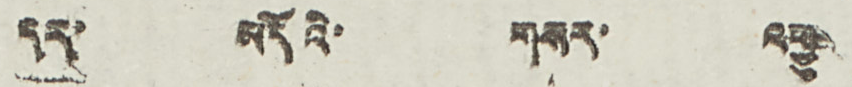དར་ མདོའི་ གསར་ འགྱུར།
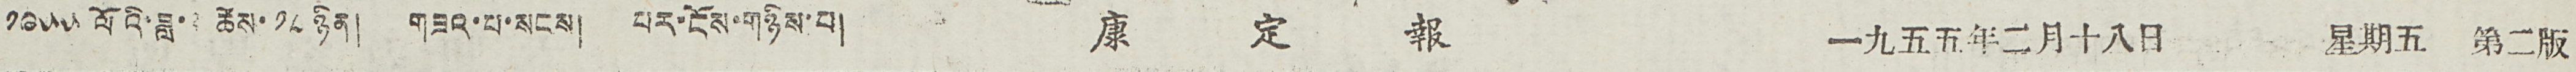༡༩༥༥ ལོའི་ཟླ་ ༢ ཚེས་ ༡༨ ཉིན། གཟའ་པ་སངས། པར་ངོས་གཉིས་པ། 康 定 報 一九五五年二月十八日 星期五 第二版
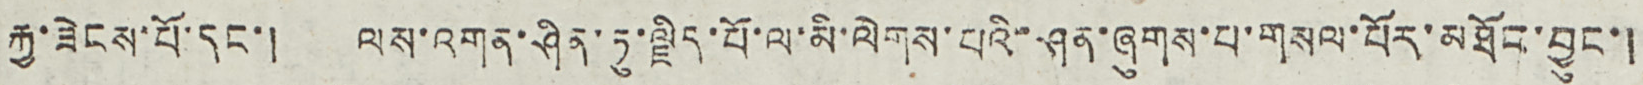རྐྱ་ཟེངས་པོ་དང་། ལས་འགན་ཤིན་ཏུ་ལྗིད་པོ་ལ་མི་ལེགས་པའི་ཤན་ཞུགས་པ་གསལ་པོར་མཐོང་བྱུང་།
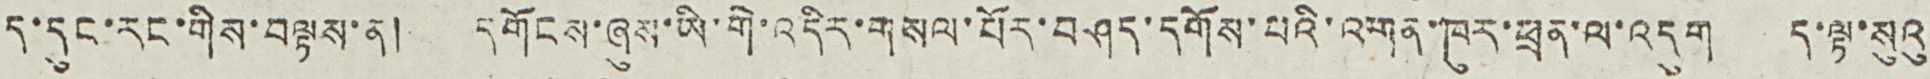ད་དུང་རང་གིས་བལྟས་ན། དགོངས་ཞུས་ཡི་གེ་འདིར་གསལ་པོར་བཤད་དགོས་པའི་འགན་ཁུར་ཕྲན་ལ་འདུག ད་ལྟ་སུའུ
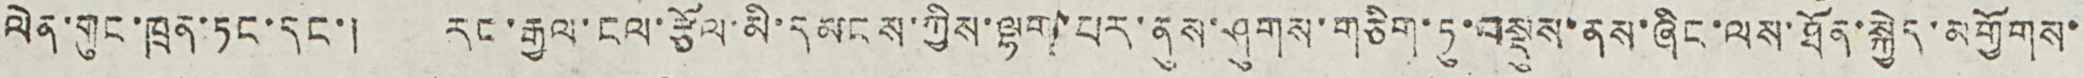ལེན་གུང་ཁྲན་ཏང་དང་། རང་རྒྱལ་ངལ་རྩོལ་མི་དམངས་ཀྱིས་ལྷག་པར་ནུས་ཤུགས་གཅིག་ཏུ་བསྡུས་ནས་ཞིང་ལས་ཐོན་སྐྱེད་མགྱོགས་
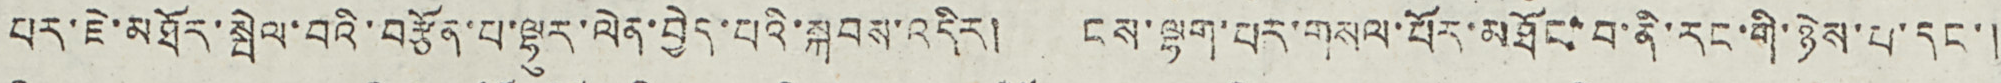པར་ཇེ་མཐོར་སྤེལ་བའི་བརྩོན་པ་ལྷུར་ལེན་བྱེད་པའི་སྐབས་འདིར། ངས་ལྷག་པར་གསལ་པོར་མཐོང་བ་ནི་རང་གི་ཉེས་པ་དང་།
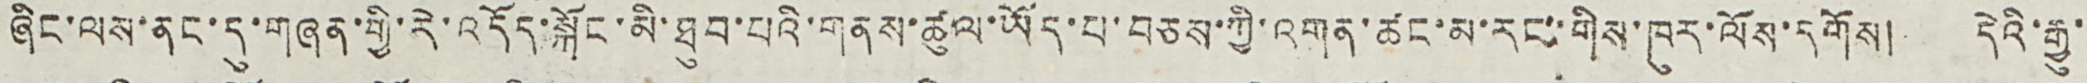ཞིང་ལས་ནང་དུ་གཞན་གྱི་རེ་འདོད་སྐོང་མི་ཐུབ་པའི་གནས་ཚུལ་ཡོད་པ་བཅས་ཀྱི་འགན་ཚང་མ་རང་གིས་ཁུར་ལོས་དགོས། དེའི་རྒྱུ་
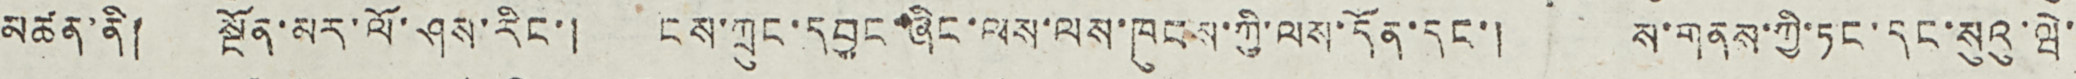མཚན་ནི། སྔོན་མར་ལོ་ཤས་རིང་། ངས་ཀྲུང་དབྱང་ཞེང་ལས་ལས་ཁུབས་ཀྱི་ལས་དོན་དང་། ས་གནས་ཀྱི་ཏང་དང་སུའུ་ཝེ་
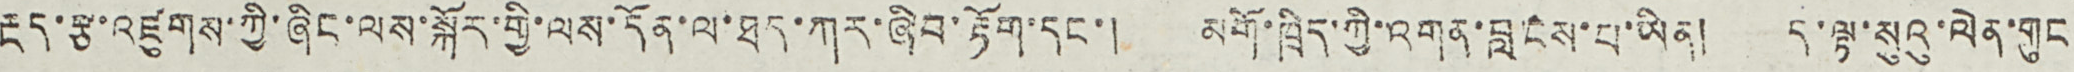རྔད་རྩ་འཛུགས་ཀྱི་ཞིང་ལས་སྐོར་གྱི་ལས་དོན་ལ་ཐད་ཀར་ཞིབ་རྟོག་དང་། མགོ་ཁྲིད་ཀྱི་འགན་བླངས་པ་ཡིན། ད་ལྟ་སུའུ་ལེན་གུང
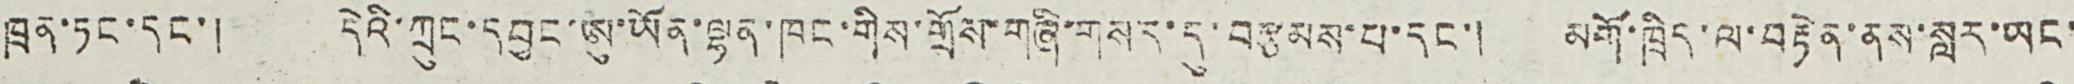ཁྲན་ཏང་དང་། དེའི་ཀྲུང་དབྱང་ཨུ་ཡོན་ལྷན་ཁང་གིས་གྲོས་གཞི་གསར་དུ་བརྩམས་པ་དང་། མགོ་ཁྲིད་ལ་བརྟེན་ནས་སླར་ཡང་
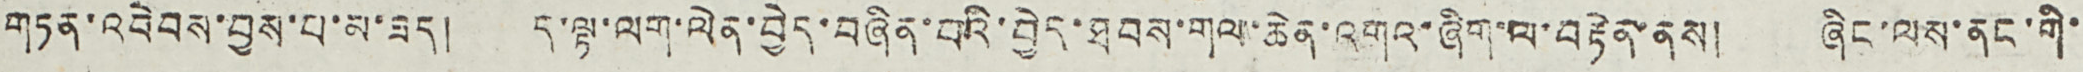གཏན་འབེབས་བྱས་པ་མ་ཟད། ད་ལྟ་ལག་ལེན་བྱེད་བཞིན་པའི་བྱེད་ཐབས་གལ་ཆེན་འགའ་ཞིག་ལ་བརྟེན་ནས། ཞིང་ལས་ནང་གི་
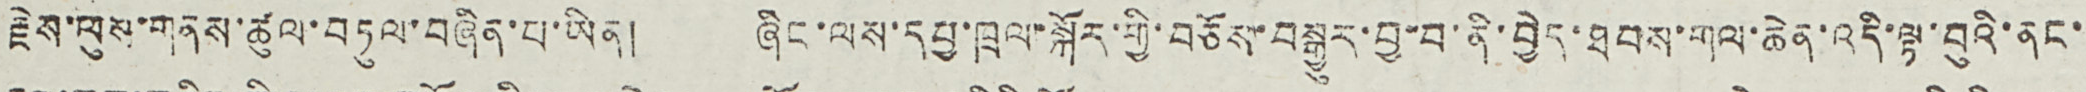རྗེས་ལུས་གནས་ཚུལ་བཏུལ་བཞིན་པ་ཡིན། ཞིང་ལས་དཔྱ་ཁྲལ་སྐོར་གྱི་བཅོས་བསྒྱུར་བྱ་བ་ནི་བྱེད་ཐབས་གལ་ཆེན་འདི་ལྟ་བུའི་ནང་
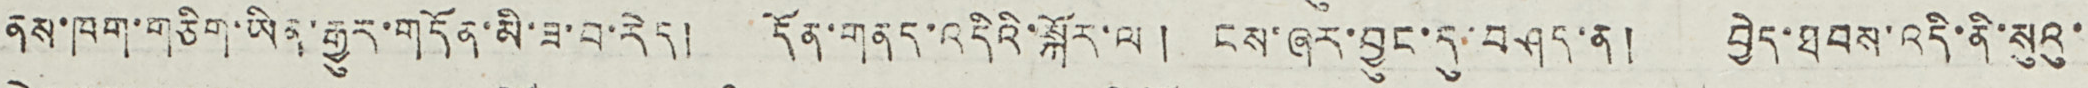ནས་ཁག་གཅིག་ཡིན་རྒྱུར་གདོན་མི་ཟ་བ་རེད། དོན་གནད་འདིའི་སྐོར་ལ ། ངས་ཞར་བྱུང་དུ་བཤད་ན། བྱེད་ཐབས་འདི་ནི་སུའུ་
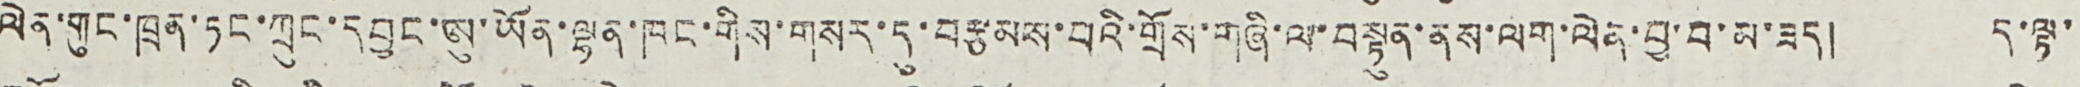ལེན་གུང་ཁྲན་ཏང་ཀྲུང་དབྱང་ཨུ་ཡོན་ལྷན་ཁང་གིས་གསར་དུ་བརྩམས་པའི་གྲོས་གཞི་ལ་བསྟུན་ནས་ལག་ལེན་བྱ་བ་མ་ཟད། ད་ལྟ་
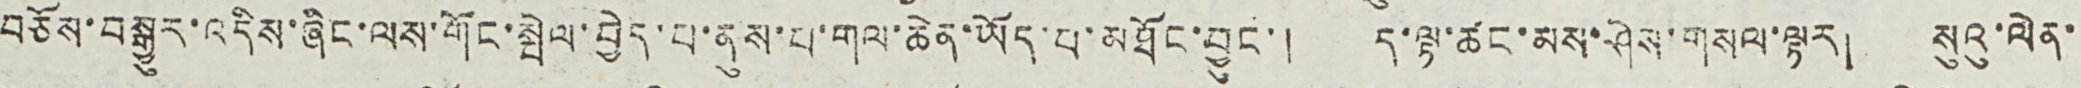བཅོས་བསྒྱུར་འདིས་ཞིང་ལས་གོང་སྤེལ་བྱེད་པ་ནུས་པ་གལ་ཆེན་ཡོད་པ་མཐོང་བྱུང་། ད་ལྟ་ཚང་མས་ཤེས་གསལ་ལྟར། སུའུ་ལེན་
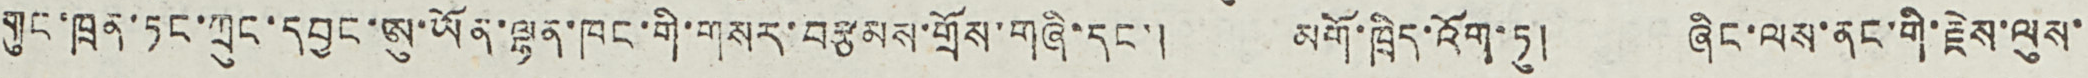གུང་ཁྲན་ཏང་ཀྲུང་དབྱང་ཨུ་ཡོན་ལྷན་ཁང་གི་གསར་བརྩམས་གྲོས་གཞི་དང་། མགོ་ཁྲིད་འོག་ཏུ། ཞིང་ལས་ནང་གི་རྗེས་ལུས་
